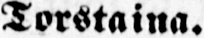Torstaina.
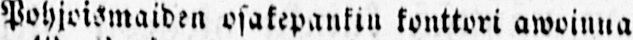Pohjoismaiden osakepankin konttori awoinna
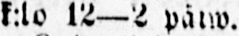k:lo l2—2 päiw.
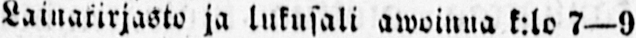Lainakirjasto ja lukusali awoinna k:lo 7—9
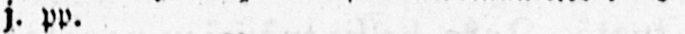j. pp.
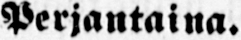Perjantaina.
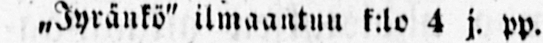˶Jyränkö" ilmaantuu k:lo 4 j. pp.
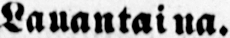Lauantaina.
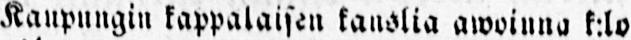Kaupungin kappalaisen kanslia awoinna k:lo
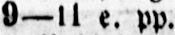9—1l e. pp.
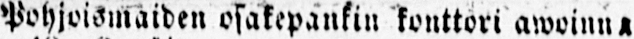Pohjoismaiden osakepankin konttori awoinna
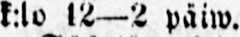k:lo 12—2 paiw.
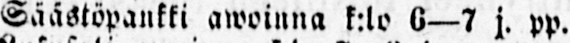Säästöpankki awoinna k:lo 6—7 j. pp.
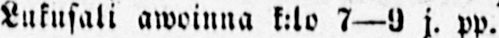Lukusali awoinna k:lo 7—9 j. pp.
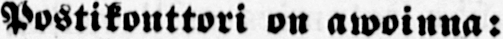Postikonttori on awoinna:
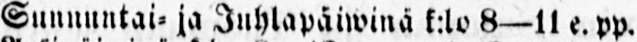Sununtai- ja Juhlapäiwinä k:lo 8—ll e. pp.
